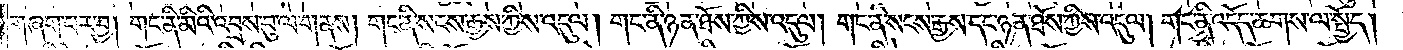གཞག་པར་བྱ། གང་ནི་མིའི་འབྲས་བུ་ལ་གནས། གང་ནི་སངས་རྒྱས་ཀྱིས་འདུལ། གང་ནི་ཉན་ཐོས་ཀྱི་འདུལ། གང་ནི་སངས་རྒྱས་དང་ཉན་ཐོས་ཀྱིས་འདུལ། གངནི་འདོད་ཆགས་ལ་སྤྱོད།
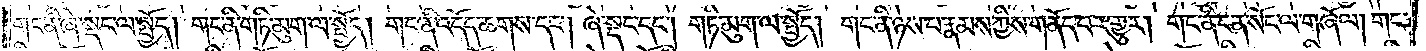གང་ནི་ཞེ་སྡང་ལ་སྤྱོད། གང་ནི་གཏི་མུག་ལ་སྤྱོད། གང་ནི་འདོད་ཆགས་དང་། ཞེ་སྡང་དང་། གཏི་མུག་ལ་སྤྱོད། གང་ནི་ཉེས་པ་རྣམས་ཀྱིས་གནོད་པར་གྱུར། གང་ནི་ངན་སོང་ལ་གཞོལ། གང་
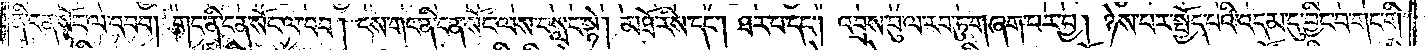ནི་ངན་སོང་འབབ། གང་ནི་ངན་སོང་ལ་བབ། དས་གང་ནི་ངན་སོང་ལས་བསླང་སྟེ། མཐོ་རིས་དང་། ཐར་བ་དང་། འབྲས་བུ་ལ་རབ་ཏུ་གཞག་པར་བྱ། ཉེས་པར་སྤྱོད་པའི་འདམ་དུ་བྱིང་བ་གང་གི་
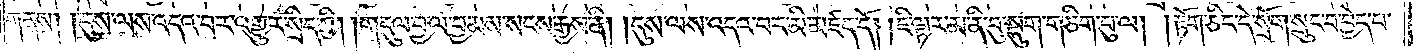གནས། །དུས་ལས་འདའ་བར་འགྱུར་སྲིད་ཀྱི། །གདུལ་བྱ་ལ་བྱམས་སངས་རྒྱས་ནི། །དུས་ལས་འདའ་བར་མི་མཛད་དོ། །ཇི་ལྟར་མ་ནི་བུ་སྡུག་གཅིག་པུ་ལ། །རྟོག་ཅིང་དེ་སྲོག་སྲུང་བ་བྱེད་པ་
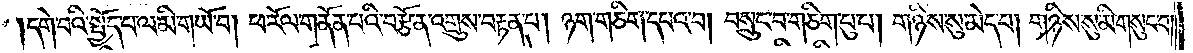།དགེ་བའི་སྤྱོད་པ་ལ་མི་གཡོ་བ། ཕ་རོལ་གནོན་པའི་བརྩོན་འགྲུས་བརྟན་པ། ཉག་གཅིག་དང་དཔའ་བ། བསྲུང་བ་གཅིག་པུ་པ། གཉིས་སུ་མེད་པ། གཉིས་སུ་མི་གསུང་པ།
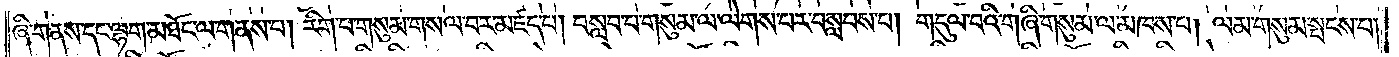ནི་ཡོངས་སུ་སྨིན་པར་བྱ། གང་གིས་དགེ་བའི་རྩ་བ་ཡོངས་སུ་སྨིན་པ་རྣམས་ནི་ཐར་བར་བྱ། གང་ཞིག་འཕགས་པ་རྣམས་ཀྱི་ནོར་གྱི་དབྱིག་དང་བྲལ་བ་ནི། འཕགས་པའི་ནོར་གྱི་དབང་ཕྱུག་ལ་
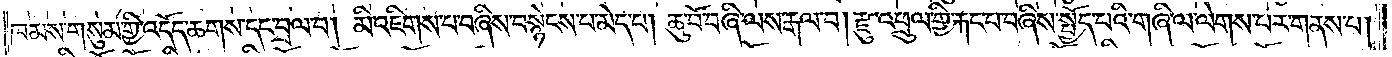ཁམས་གསུམ་གྱི་འདོད་ཆགས་དང་བྲལ་བ། མི་འཇིགས་པ་བཞིས་བསྙེངས་པ་མེད་པ། ཆུ་བོ་བཞི་ལས་རྒལ་བ། རྫུ་འཕྲུལ་གྱི་རྐང་པ་བཞིས་སྤྱོད་པའི་གཞི་ལ་ལེགས་པར་གནས་པ།
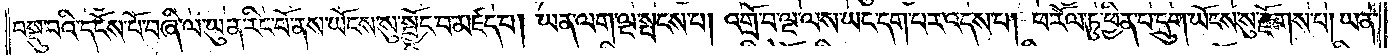བསྡུ་བའི་དངོས་པོ་བཞི་ལ་ཡུན་རིང་པོ་ནས་ཡོངས་སུ་སྦྱོང་བ་མཛད་པ། ཡན་ལག་ལྔ་སྤངས་པ། འགྲོ་བ་ལྔ་ལས་ཡང་དག་པར་འདས་པ། ཕ་རོལ་ཏུ་ཕྱིན་པ་དྲུག་ཡོངས་སུ་རྫོགས་པ། ཡན་
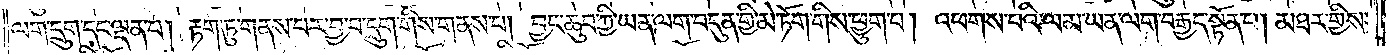ལག་དྲུག་དང་ལྡན་པ། རྟག་ཏུ་གནས་པར་བྱ་བ་དྲུག་གིས་གནས་པ། བྱང་ཆུབ་ཀྱི་ཡན་ལག་བདུན་གྱི་མེ་ཏོག་གིས་ཕྱུག་པ། འཕགས་བའི་ལམ་ཡན་ལག་བརྒྱད་སྟོན་པ། མཐར་གྱིས་
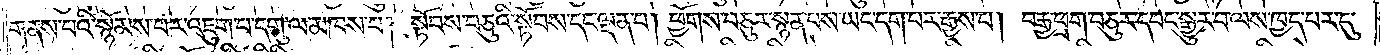གནས་བའི་སྙོམས་པར་འཇུག་པ་དགུ་ལ་མཁས་པ། སྟོབས་བཅུའི་སྟོབས་དང་ལྡན་བ། ཕྱོགས་བཅུར་སྙན་པས་ཡང་དག་པར་རྒྱས་པ། བརྒྱ་ཕྲག་བཅུར་དབང་སྒྱུར་བ་ལས་ཁྱད་པར་དུ་
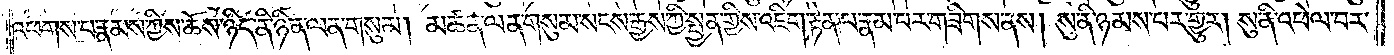འཕགས་པ་རྣམས་ཀྱིས་ཆོས་ཉིད་ནི་ཉིན་ལན་གསུམ། མཚན་ལན་གསུམ་སངས་རྒྱས་ཀྱི་སྤྱན་གྱིས་འཇིག་རྟེན་པ་རྣམ་པར་གཟིགས་ནས། སུ་ནི་ཉམས་པར་གྱུར། སུ་ནི་འཕེལ་བར་
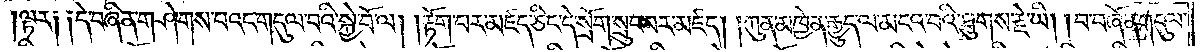ལྟར༑ ༑དེ་བཞིན་གཤེགས་པའང་གདུལ་བའི་སྐྱེ་བོ་ལ། །རྟོག་པར་མཛད་ཅིང་དེ་སྲོག་སྲུང་བར་མཛད། །ཀུན་མཁྱེན་རྒྱུད་ལ་མངའ་བའི་ཐུགས་རྗེ་ཡི། །བ་བཞོན་གདུལ་
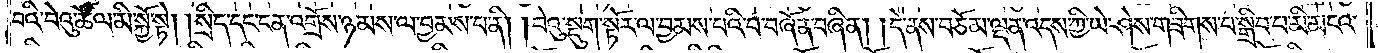བའི་བེའུ་ཚོལ་མི་སྐྱེ་སྟེ། །སྲིད་དང་ངན་འགྲོས་ཉམས་ལ་བྱམས་པ་ནི། །བེའུ་སྡུག་སྟོར་ལ་བྱམས་པའི་བ་བཞོན་བཞིན། །དེ་ནས་བཅོམ་ལྡན་འདས་ཀྱི་ཡེ་ཤེས་གཟིགས་པ་སྒྲིབ་པ་མི་མངའ་
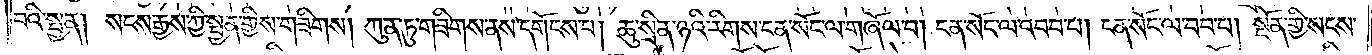བའི་སྤྱན། སངས་རྒྱས་ཀྱི་སྤྱན་གྱིས་གཟིགས། ཀུན་ཏུ་གཟིགས་ནས་དགོངས་པ། ཆུ་སྲིན་ཉའི་རིགས་ངན་སོང་ལ་གཞོལ་བ། ངན་སོང་ལ་འབབ་པ། ངན་སོང་ལ་བབ་པ། སྔོན་གྱི་སངས་
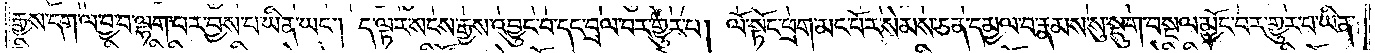རྒྱས་དག་ལ་བྱ་བ་ལྷག་པར་བྱས་པ་ཡིན་ཡང༌། ད་ལྟར་སངས་རྒྱས་འབྱུང་བ་དང་བྲལ་བར་གྱུར་པ། ལོ་སྟོང་ཕྲག་མང་བོར་སེམས་ཅན་དམྱལ་བ་རྣམས་སུ་སྡུག་བསྔལ་མྱོང་བར་གྱུར་པ་ཡིན་
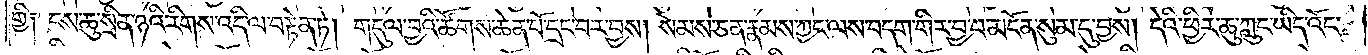གྱི༑ ངས་ཆུ་སྲིན་ཉའི་རིགས་འདི་ལ་བརྟེན་ཏེ། གདུལ་བྱའི་ཚོགས་ཆེན་པོ་དྲང་བར་བྱས། སེམས་ཅན་རྣམས་ཀྱང་ལས་བདག་གིར་བྱ་བ་མངོན་སུམ་དུ་བྱས། དེའི་ཕྱིར་ཆུ་ཀླུང་ཡིད་འོང་
